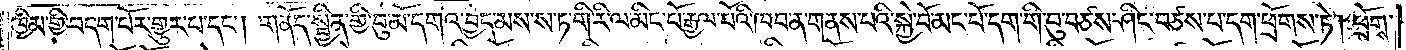ཁྱིམ་གྱི་བདག་པོར་གྱུར་པ་དང༌། གནོད་སྦྱིན་གྱི་བུ་མོ་དགའ་བྱེད་མས་ས་ཏ་གི་རི་ལ་མིང་པོ་རྒྱལ་པོའི་ཁབ་ན་གནས་པའི་སྐྱེ་བོ་མང་པོ་དག་གི་བུ་བཙས་ཤིང་བཙས་པ་དག་ཕྲོགས་ཏེ། ཕྲོགས་
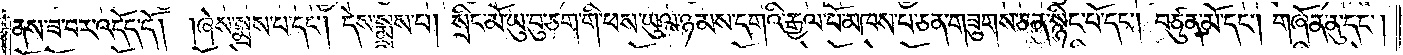ནས་ཟ་བར་འདོད་དོ། །ཞེས་སྨྲས་པ་དང༌། དེས་སྨྲས་པ། སྲིང་མོ་ཡུ་བུ་ཅག་གི་ཕས་ཡུལ་ཉམས་དགའི་རྒྱལ་པོ་མཁས་པ་ཅན་གཟུགས་ཅན་སྙིང་པོ་དང༌། བཙུན་མོ་དང༌། གཞོན་ནུ་དང༌།
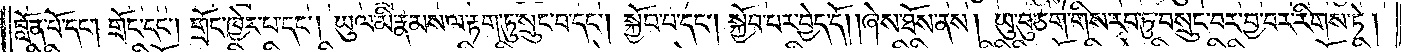བློན་པོ་དང༌། གྲོང་དང༌། གྲོང་ཁྱེར་པ་དང༌། ཡུལ་མི་རྣམས་ལ་རྟག་ཏུ་སྲུང་བ་དང༌། སྐྱོབ་པ་དང༌། སྐྱོབ་པར་བྱེད་དོ། །ཞེས་ཐོས་ནས། ཡུ་བུ་ཅག་གིས་རབ་ཏུ་བསྲུང་བར་བྱ་བར་རིགས་ཏེ།
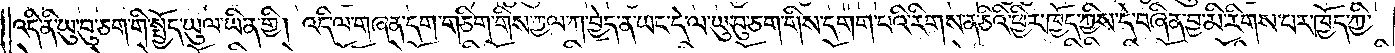འདི་ནི་ཡུ་བུ་ཅག་གི་སྤྱོད་ཡུལ་ཡིན་གྱི། འདི་ལ་གཞན་དག་གཅིག་གིས་ཀྱལ་ཀ་བྱེད་ན་ཡང་དེ་ལ་ཡུ་བུ་ཅག་གིས་དགག་པའི་རིགས་ན་ཅིའི་ཕྱིར་ཁྱོད་ཀྱིས་དེ་བཞིན་བྱ་མི་རིགས་པར་ཁྱོད་ཀྱི་
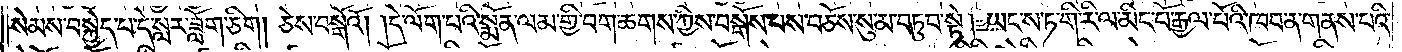སེམས་བསྐྱེད་པ་དེ་སླར་ཟློག་ཅིག། ཅེས་བསྒོའོ། །དེ་ལོག་པའི་སྨོན་ལམ་གྱི་བག་ཆགས་ཀྱིས་བསྒོས་པས་བཅོས་སུ་མ་བཏུབ་སྟེ། ཡང་ས་ཏ་གི་རི་ལ་མིང་པོ་རྒྱལ་པོའི་ཁབ་ན་གནས་པའི་
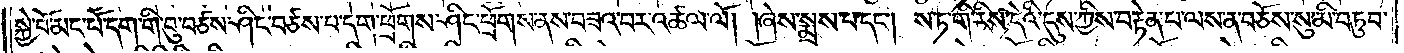སྐྱེ་བོ་མང་པོ་དག་གི་བུ་བཙས་ཤིང་བཙས་པ་དག་ཕྲོགས་ཤིང་ཕྲོགས་ནས་བཟའ་བར་འཚལ་ལོ། །ཞེས་སྨྲས་པ་དང༌། ས་ཏ་གི་རིས་དེའི་དུས་ཀྱིས་བརྟེན་པ་ལས་ན་བཅོས་སུ་མི་བཏུབ་
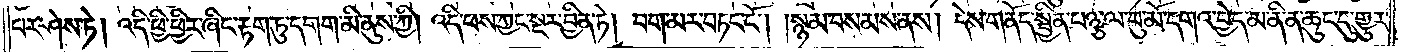པར་ཤེས་ཏེ། འདི་ཕྱི་ཕྱིར་ཞིང་རྟག་ཏུ་དགག་མི་ནུས་ཀྱི། འདི་ཕས་ཀྱང་སྔར་བྱིན་ཏེ། བག་མར་བཏང་ངོ༌། །སྙམ་བསམས་ནས། དེས་གནོད་སྦྱིན་པཉྩ་ལ་བུ་མོ་དགའ་བྱེད་མ་ནི་ན་ཆུང་དུ་གྱུར་
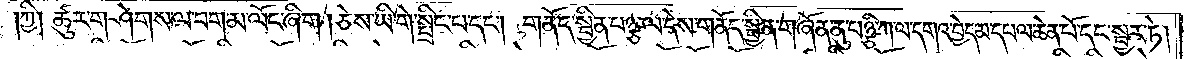།ཀྱི། ཚུར་གཤེགས་ལ་བག་མ་ལོང་ཞིག །ཅེས་ཡི་གེ་སྤྲིང་པ་དང༌། གནོད་སྦྱིན་པཉྩ་ལ་དེས་གནོད་སྦྱིན་གཞོན་ནུ་པཉྩི་ཀ་ལ་དགའ་བྱེད་མ་དཔལ་ཆེན་པོ་དང་སྦྱར་ཏེ།
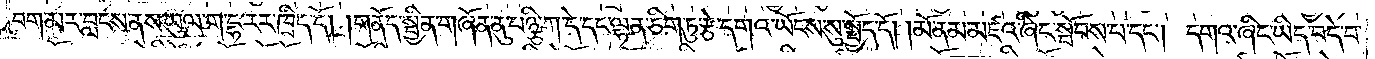བག་མར་བླངས་ནས་ཡུལ་ག་དྷ་རར་ཁྲིད་དོ། །གནོད་སྦྱིན་གཞོན་ནུ་པཉྩི་ཀ་དེ་དང་ལྷན་ཅིག་ཏུ་རྩེ་དགའ་ཡོངས་སུ་སྤྱོད་དོ། །མོ་ནམ་མཛའ་ཞིང་སྦོབས་པ་དང༌། དགའ་ཞིང་ཡིད་བདེ་བ་
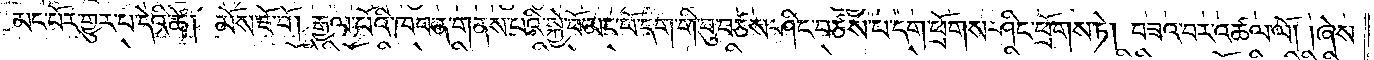མང་པོར་གྱུར་པ་དེའི་ཚེ། མོས་ཇོ་བོ། རྒྱལ་པོའི་ཁབ་ན་གནས་པའི་སྐྱེ་བོ་མང་པོ་དག་གི་བུ་བཙས་ཤིང་བཙས་པ་དག་ཕྲོགས་ཤིང་ཕྲོགས་ཏེ། བཟའ་བར་འཚལ་ལོ། །ཞེས་
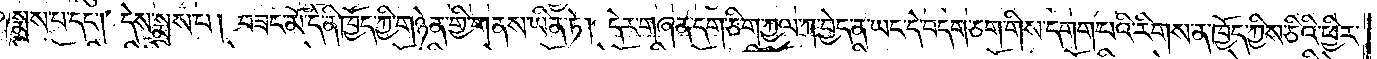སྨྲས་པ་དང༌། དེས་སྨྲས་པ། བཟང་མོ་དེ་ནི་ཁྱོད་ཀྱི་གཉེན་གྱི་གནས་ཡིན་ཏེ། དེར་གཞན་དག་ཅིག་ཀྱལ་ཀ་བྱེད་ན་ཡང་དེ་བདག་ཅག་གིས་དགག་པའི་རིགས་ན་ཁྱོད་ཀྱིས་ཅིའི་ཕྱིར་
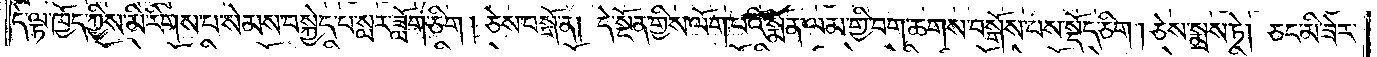དེ་ལྟ་ཁྱོད་ཀྱིས་མི་རིགས་པ་སེམས་བསྐྱེད་པ་སླར་ཟློག་ཅིག །ཅེས་བསྒོ་ན། དེ་སྔོན་གྱིས་ལོག་པའི་སྨོན་ལམ་གྱི་བག་ཆགས་བསྒོས་པས་སྡོད་ཅིག །ཅེས་སྨྲས་ཏེ། ཅང་མི་ཟེར་
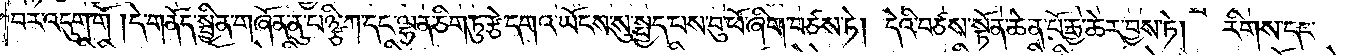བར་འདུག་གོ །དེ་གནོད་སྦྱིན་གཞོན་ནུ་པཉྩི་ཀ་དང་ལྷན་ཅིག་ཏུ་རྩེ་དགའ་ཡོངས་སུ་སྤྱད་པས་བུ་ཕོ་ཞིག་བཙས་ཏེ། དེའི་བཙས་སྟོན་ཆེན་པོ་རྒྱ་ཆེར་བྱས་ཏེ། རིགས་དང་
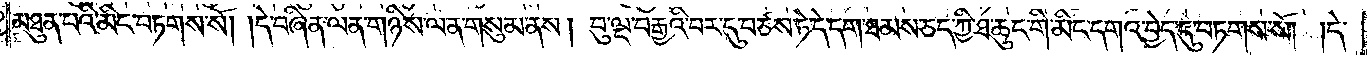མཐུན་པའི་མིང་བཏགས་སོ། །དེ་བཞིན་ལན་གཉིས་ལན་གསུམ་ནས། བུ་ལྔ་བརྒྱའི་བར་དུ་བཙས་ཏེ་དེ་དག་ཐམས་ཅད་ཀྱི་ཐ་ཆུང་གི་མིང་དགའ་བྱེད་དུ་བཏགས་སོ། །དེ་
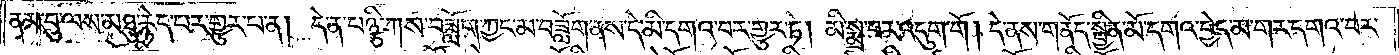ནམ་བུ་ལས་མཐུ་རྙེད་པར་གྱུར་པ་ན། དེ་ན་པཉྩི་ཀས་བཟློག་ཀྱང་མ་བཟློག་ནས་དེ་མི་དགའ་བར་གྱུར་ཏེ། མི་སྨྲ་བར་འདུག་གོ། །དེ་ནས་གནོད་སྦྱིན་མོ་དགའ་བྱེད་མ་གར་དགའ་བར་
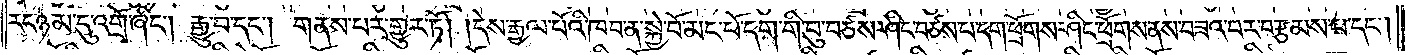རང་ཉམ་དུ་འགྲོ་ཞིང༌། རྒྱུ་བ་དང༌། གནས་པར་གྱུར་ཏོ། །དེས་རྒྱལ་པོའི་ཁབ་ན་སྐྱེ་བོ་མང་པོ་དག་གི་བུ་བཙས་ཤིང་བཙས་པ་དག་ཕྲོགས་ཤིང་ཕྲོགས་ནས་བཟའ་བར་བརྩམས་པ་དང༌།
